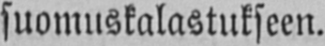suomuskalastukseen.
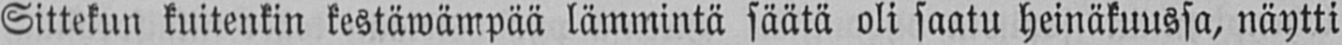Sittekun kuitenkin kestäwämpää lämmintä säätä oli saatu heinäkuussa, näytti
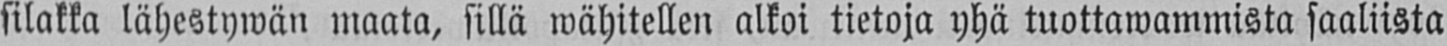silakka lähestywän maata, sillä wähitellen alkoi tietoja yhä tuottawammista saaliista
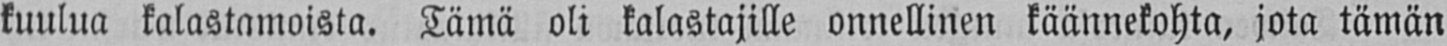kuulua kalastamoista. Tämä oli kalastajille onnellinen käännekohta, jota tämän
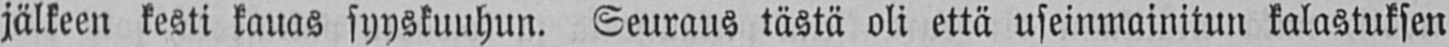jälkeen kesti kauas syyskuuhun. Seuraus tästä oli että useinmainitun kalastuksen
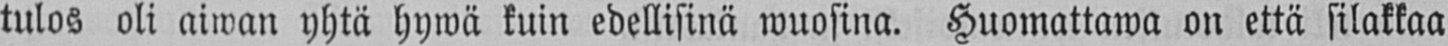tulos oli aiwan yhtä hywä kuin edellisinä wuosina. Huomattawa on että silakkaa
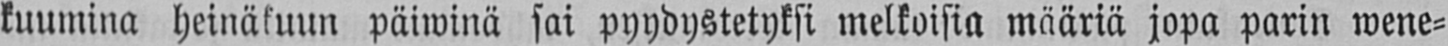kuumina heinäkuun päiwinä sai pyydystetyksi melkoisia määriä jopa parin wene-
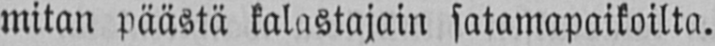mitan päästä kalastajain satamapaikoilta.
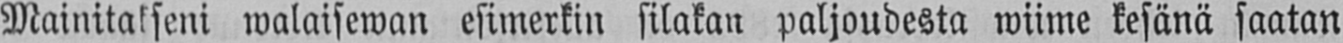Mainitakseni walaisewan esimerkin silakan paljoudesta wiime kesänä saatan
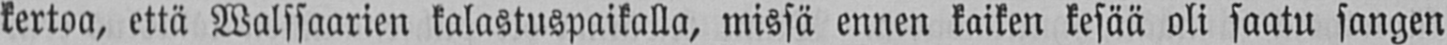kertoa, että Walssaarien kalastuspaikalla, missä ennen kaiken kesää oli saatu sangen
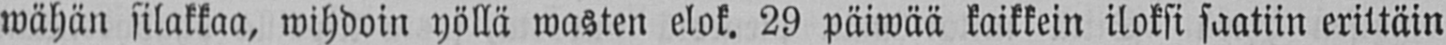wähän silakkaa, wihdoin yöllä wasten elok. 29 päiwää kaikkein iloksi saatiin erittäin
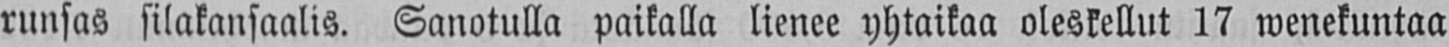runsas silakansaalis. Sanotulla paikalla lienee yhtaikaa oleskellut 17 wenekuntaa
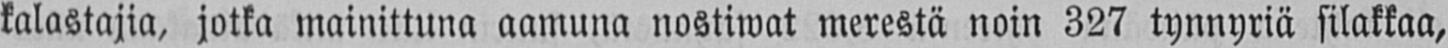kalastajia, jotka mainittuna aamuna nostiwat merestä noin 327 tynnyriä silakkaa,
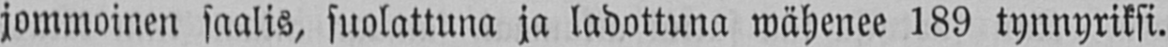jommoinen saalis, suolattuna ja ladottuna wähenee 189 tynnyriksi.
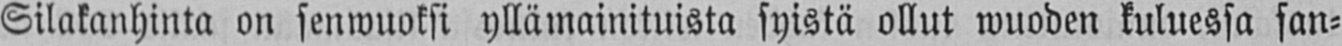Silakanhinta on senwuoksi yllämainituista syistä ollut wuoden kuluessa san-
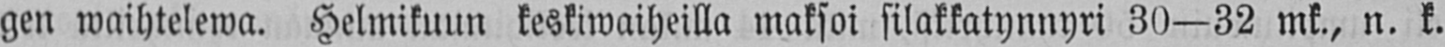gen waihtelewa. Helmikuun keskiwaiheilla maksoi silakkatynnyri 30—32 mk., n. k.
